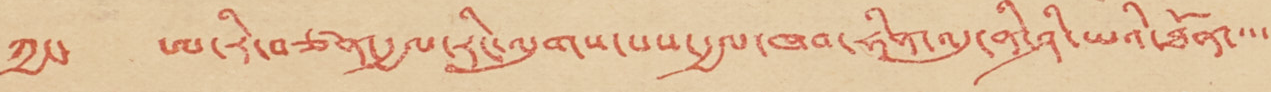ཀྱང་ ཨ་རི་བཙན་རྒྱལ་རིང་ལུགས་པས་རྒྱལ་ཁབ་ཧིན་འདུ་ནི་ཤི་ཡའི་ཐོན་་་་
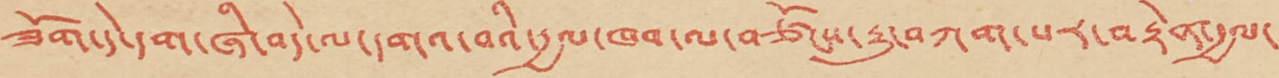ཟོག་དེ་དག་ཞི་བདེ་ལ་དགའ་བའི་རྒྱལ་ཁབ་ལ་བཙོངས་རྒྱུ་བཀག་པར་བརྟེན་རྒྱལ་
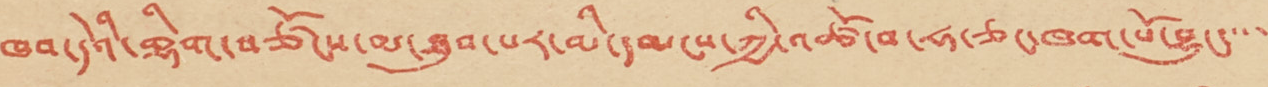ཁབ་དེའི་གྷིག་བཙོངས་མ་ཐུབ་པར་མི་དམངས་ཀྱི་འཚོ་བ་ཧ་ཅང་ཁག་པོ་བྱུང་་་་
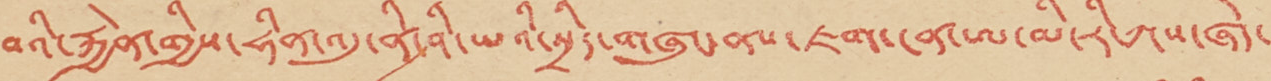བའི་རྐྱེན་གྱིས་ཧིན་འདུ་ནི་ཤི་ཡའི་སྲིད་གཞུང་ནས་ཇག་ངན་ཨ་མི་རི་ཀས་ཞེད་
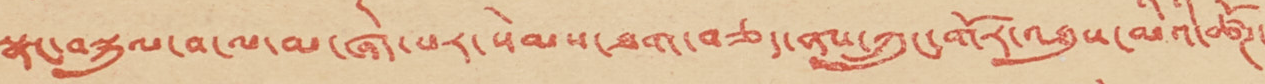སྣང་བསྐུལ་བ་ལ་མ་ཞེད་པར་སེམས་ཐག་བཅད་ནས་ཀྲུང་གོར་འཐུས་མིའི་ཚོཊ་
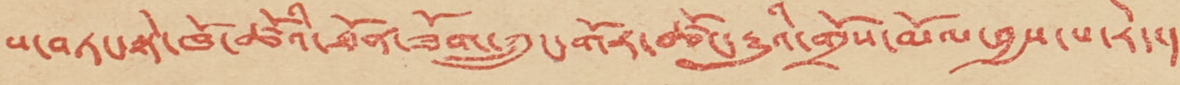པ་བཏང་སྟེ་ཁོང་ཚོའི་ཐོན་ཟོག་ཀྲུང་གོར་ཚོང་རྒྱུའི་གྲོས་མོལ་བྱས་པ་རེད་།
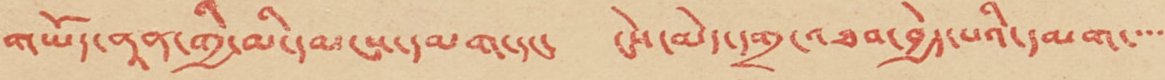• གཡོད་ནཱན་གྱི་མི་དམངས་དམག་དང་ ངེས་མེད་དགྲ་འཐབ་བྱེད་པའི་དམག་་་་
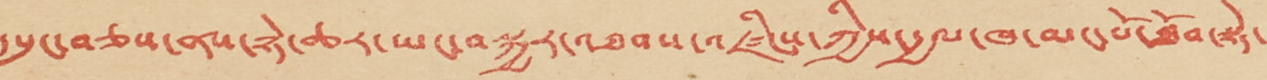དཔུང་བཅས་ནས་ཉེ་ཆར་ཡང་བསྐྱར་འཐབས་འཛིངས་ཀྱིས་རྒྱལ་ཁ་མང་པོ་ཐོབ་སྟེ་
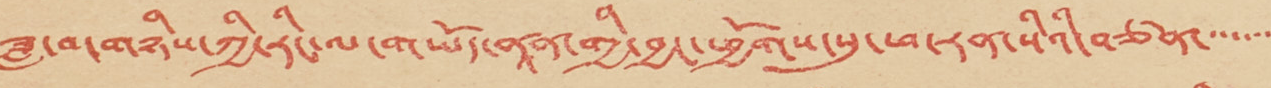ཟླ་བ་གཉིས་ཀྱི་རིང་ལ་གཡོད་ནཱན་གྱི་བྱང་ཕྱོགས་སུ་ཕ་རན་སིའི་བཙན་་་་་་་
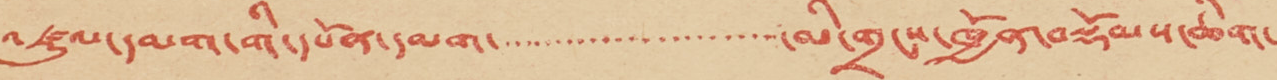འཛུལ་དམག་གི་དཔོན་དམག་་་་་་་་་་་་་་་་་་་་་་་་མི་གྲངས་ཁྱོན་བསྡོམས་ཆིག་
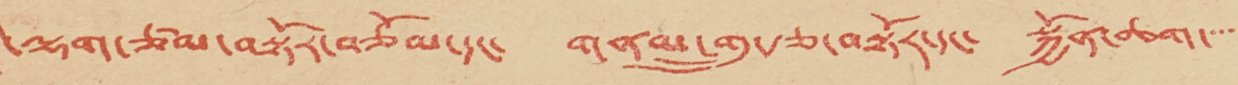ཁྲི་ལྷག་ཙམ་བསྟོར་བཅོམ་དང་ གནམ་གྲུ་རྩ་བསྟོར་དང་ སྐྱོན་ཆག་་་་
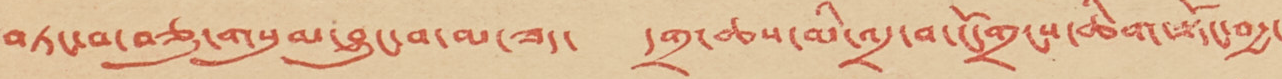བཏང་བ་བཅུ་གསུམ་བྱུང་བ་མ་ཟད་ དགྲ་ཆས་མི་འདྲ་བ་ངོ་གྲངས་ཆིག་སྟོང་བརྒྱ་
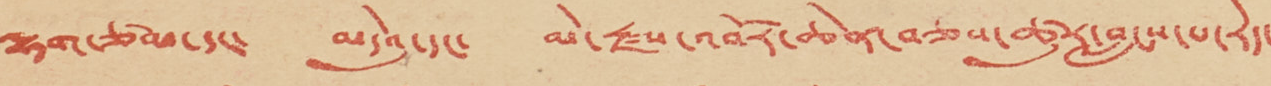ལྷག་ཙམ་དང་ མདེའུ་དང་ མེ་རྫས་འབོར་ཆེན་བཅས་ཚུར་བླངས་པ་རེད་
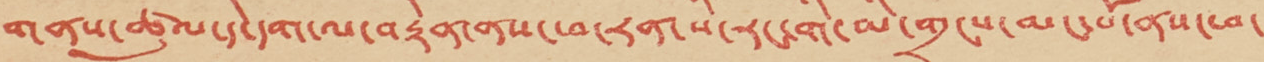གནས་ཚུལ་དེ་དག་ལ་བརྟེན་ནས་ཕ་རན་སི་རང་གི་མི་གྲངས་མང་པོ་ནས་ཕ་
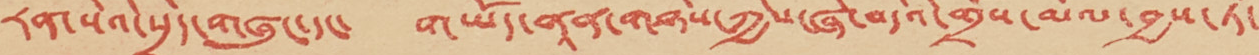རན་སིའི་སྲིད་གཞུང་དང་ གཡོད་ནཱན་གཉིས་ཀྱིས་ཞི་བདེའི་གྲོས་མོལ་བྱས་ཏེ་
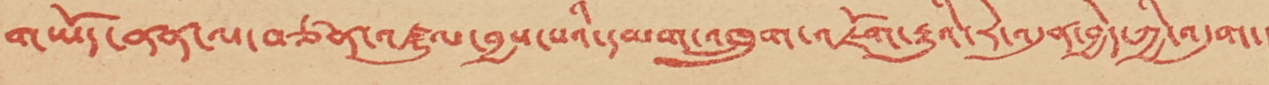གཡོད་ནན་ལ་བཙན་འཛུལ་བྱས་པའི་དམག་འཁྲུག་འཇོག་རྒྱུའི་རེ་འདུན་བྱེད་ཀྱི་འདུག་།
